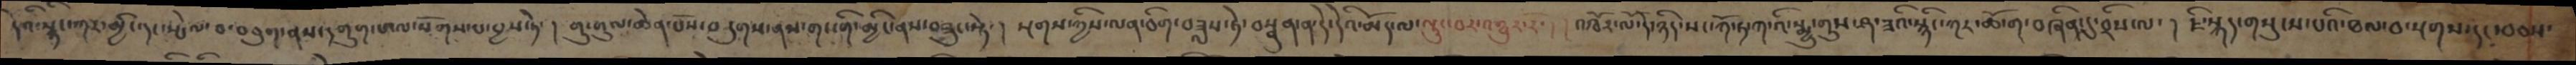དེའི་སྙིང་ཀར་མྱི་དང་སྤེལ་བ་བཅུག་ནས་དགུག་པ་ལ་སོགས་པ་བྱས་ཏེ་། གུ་གུལ་ཆེན་པོས་བདུགས་ནས་གང་གི་མྱིང་ནས་བཟུང་སྟེ་། སྔགས་ཀྱིས་ལན་ཅིག་བཟླས་ཏེ་བསྣུན་ན་དེ་དེའི་མོད་ལ་ལྟུང་བར་འགྱུར་རོ་། །འཁོར་ལོ་དེ་ཉིད་སང་ཀོ་ཏ་ཀ་འི་སྨྱུ་གུས་ཤ་ཟའི་སྙིང་ཀར་ཆོ་ག་བཞིན་དུ་བྲིས་ལ་། ཇི་སྐདད་གསུངས་པའི་ཐལ་བ་སྔགས་དང་བཅས་
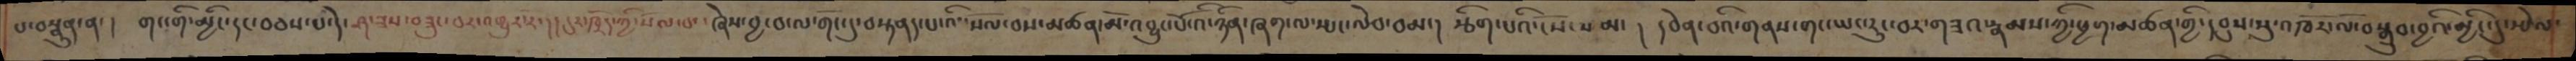པ་བསྣུན་ན་། གང་གི་མྱིང་དང་བཅས་པ་དེ་ཤ་ཟས་བཟུང་བར་འགྱུར་རོ་། །དུར་ཁྲོད་ཀྱི་སོལ་པ་ཞེས་བྱ་བ་ལ་གོང་དུ་བསྟནད་པ་འི་སོལ་བས་མཚན་མོ་འབྱུང་པོ་འི་ཉིན་ཞག་ལ་སྤང་ལེབ་བམ་། རྩིག་པའི་ངོས་སམ་། དབེན་པའི་གནས་གང་ཡང་རུང་བར་གཟའ་རྣམས་ཀྱི་ཕྱག་མཚན་གྱི་དབུས་སུ་འཁོར་ལོ་བསྒྲུབ་བྱའི་མྱིང་དུ་སྤེལ་
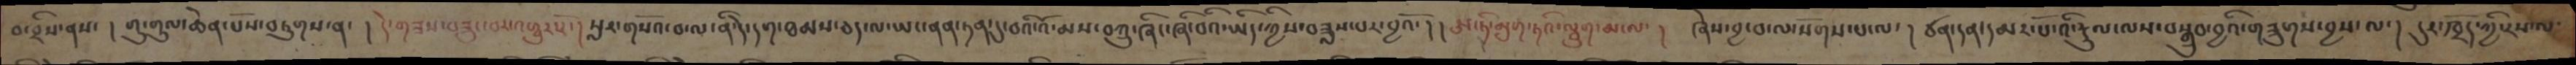བ་བྲིས་ནས་། གུ་གུལ་ཆེན་པོས་བདུགས་པ་། དེ་གཟས་བཟུང་བར་འགྱུར་རོ་། སླར་གསོའ་བ་ལ་ནི་དེ་དག་ཐམས་ཅད་ལ་ཡང་ནན་ཏན་དུ་བའི་འོ་མས་བཀྲུ་ཞིང་ཞི་བའི་ཡིད་ཀྱིས་བཟླས་པར་བྱའོ་། །ཨ་ཏི་མུག་ཏའི་ལྦུག་མ་ལ་། ཞེས་བྱ་བ་ལ་སོགས་པ་ལ་། ཙན་དན་དམར་པོ་འི་རྡུལ་ལས་བསྒྲུབ་བྱའི་གཟུགས་བྱས་ལ་། དུར་ཁྲོད་ཀྱི་རས་ལ་
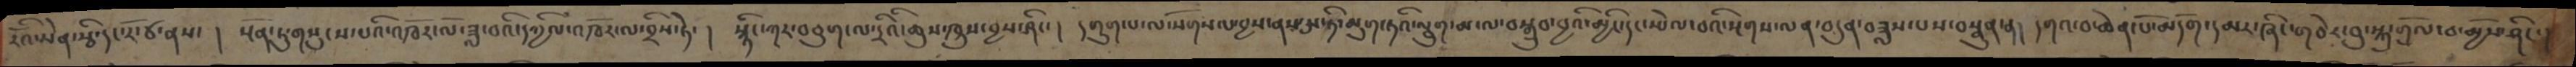རོའི་ཡེན་རྩི་དང་རོ་ཙ་ནས་། སྔོན་དུ་གསུངས་པའི་འཁོར་ལོ་ཟླ་བའི་དཀྱིལ་འཁོར་ལ་བྲིས་ཏེ་། སྙིང་ཀར་བཅུག་ལ་དྲིའི་ཆུས་ཁྲུས་བྱས་ཤིང་། དགུག་པ་ལ་སོགས་པ་བྱས་ནས་ཨ་ཏི་མུག་ཏའི་ལྦུག་མ་ལ་བསྒྲུབ་བྱའི་མྱིང་དང་སྤེལ་བའི་སྔགས་ལན་བདུན་བཟླས་པས་བསྣུན་ན། དགའ་བ་ཆེན་པོ་མདོག་དམར་ཞིང་གཅེར་བུ་སྐུ་གྲོལ་བ་མྱོས་ཤིང་།
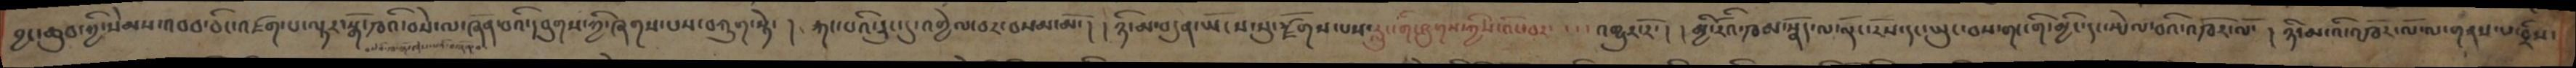བྱང་ཆུབ་ཀྱི་སེམས་འབབ་ཅིང་འཛག་པ་ལྟར་སྒོ་ཁའི་བསེ་ལ་ཞོན་པའི་དབུགས་ཀྱི་ཞགས་པས་བཀུག་སྟེ་ ། རྐང་པའི་དྲུང་དུ་འགྱེལ་བར་བསམ་མོ་། །ཉི་མ་བདུན་ཡོངས་སུ་རྫོགས་པས་རླུང་གི་ཤུགས་ཀྱིས་འོང་བར་་་་འགྱུར་རོ་། །མྱི་རོའི་ཁམ་སྣོད་ལ་ལྡོང་རོས་དང་སྤུང་བས་གང་གི་མྱིང་དང་སྤེལ་བའི་འཁོར་ལོ་ ། ཉི་མ་འི་འཁོར་ལོ་ལ་གནས་པ་བྲིས་
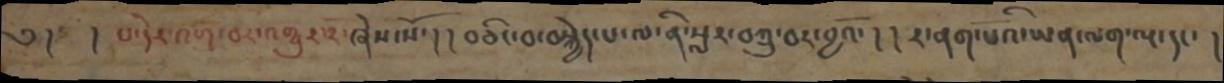༅།  ། པ་དེར་འགོ་བར་འགྱུར་རོ་ཞེས་སོ་། ། བཅིང་བ་བསྐྱེད་པ་ལ་ནི་སླར་བཀྲུ་བར་བྱའོ་། ། ར་ནག་པོའི་ཡན་ལག་ལྔ་དང་།
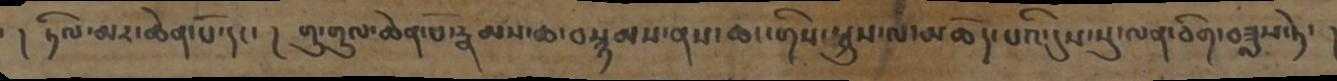་། ཏིལ་མར་ཆེན་པོ་དང་། གུ་གུལ་ཆེན་པོ་རྣམས་ཆ་བསྙམས་ནས་ཆང་གིས་སྐུས་ལ་མཆོད་པའི་དུས་སུ་ལན་ཅིག་བཟླས་ཏེ་ །
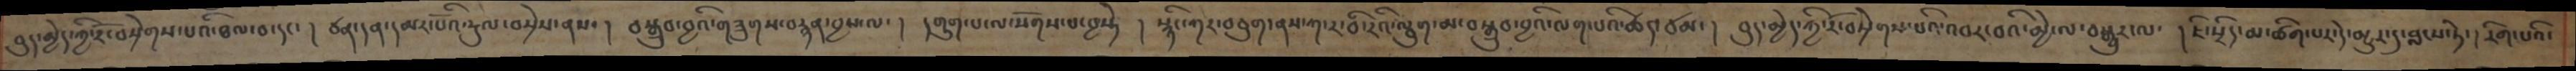བུད་མྱེད་ཀྱི་རོ་བསྲེགས་པའི་ཐལ་བ་དང་། ཙན་དན་དམར་པོའི་རྡུལ་བསྲེས་ནས་། བསྒྲུབ་བྱའི་གཟུགས་བརྙན་བྱས་ལ་། དགུག་པ་ལ་སོགས་པ་བྱ་སྟེ ། སྙིང་ཀར་བཅུག་ནས་ཀ་ར་བི་རའི་ལྕུག་མ་བསྒྲུབ་བྱའ་ལག་པའི་ཚད་ཙམ་། བུད་མྱེད་ཀྱི་རོ་བསྲེགས་པའི་འབར་བའི་མྱེ་ལ་བསྒྱུར་ལ་། ཇི་སྲིད་མ་ཚིག་པར་དེ་མྱུར་དུ་བླངས་ཏེ་ ། རིག་པའི
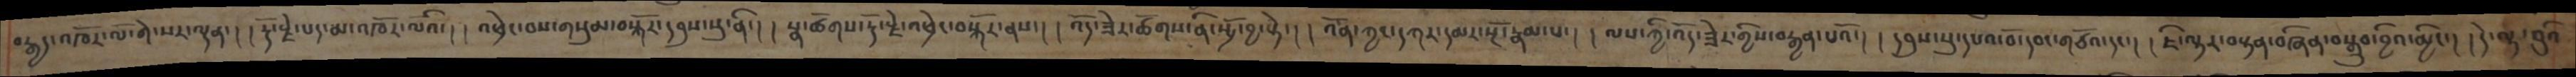བརྒྱད་འཁོར་ལོ་གེ་སར་ལྡན་། །རྡོ་རྗེ་པད་མ་འཁོར་ལོའི་། །འཕྲེང་བས་གསུམ་བསྐོར་དབུས་སུ་ནི་། །སྣ་ཚོགས་རྡོ་རྗེ་འཕྲེང་བསྐོར་ནས་། །འོད་ཟེར་ཚོགས་ནི་སྤྲོ་བྱ་སྟེ་། །འོན་ཀྱང་དཀར་དམར་སྔོ་རྣམ་པ་། །ལས་ཀྱི་འོད་ཟེར་གྱིས་བརྒྱན་པའོ་། །དབུས་སུ་དཔའ་བོ་དབང་གཙོའ་དང་། །ཇི་ལྟར་བསྟན་བཞིན་བསྒྲུབ་བྱའི་མྱིང་། །དེ་ལྟ་བུའི
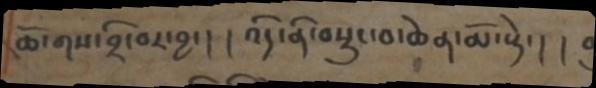ཆོ་གས་བྲི་བར་བྱ་། །འདི་ནི་བསྲུང་བ་ཆེན་མོ་སྟེ་། ། བུ
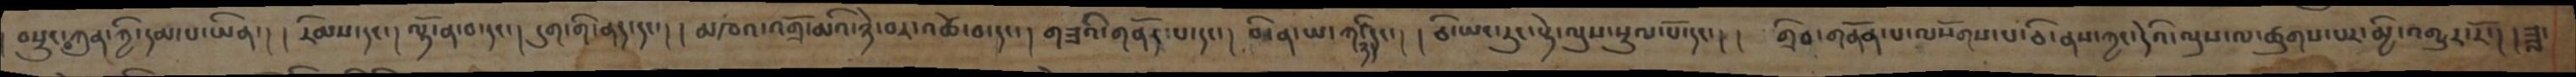བསྲུང་བ་ཀུན་གྱི་དམ་པ་ཡིན་། །རིམས་དང་། ལྟོ་ན་བ་དང་། དུག་གི་ནད་དང་། །མཁའ་འགྲོ་མའི་ཉེ་བར་འཚེ་བ་དང་། གཟའི་གནོད་པ་དང་། བི་ན་ཡ་ཀ་ཉིད་དང་། །ཅི་ཡང་རུང་སྟེ་ལུས་སྲུལ་པོ་དང་། །གྲིབ་གནོན་པ་ལསོགས་པ་ཅི་ནས་ཀྱང་དེའི་ལུས་ལ་ཚུགས་པར་མྱི་འགྱུར་རོ་། །ཟླ་
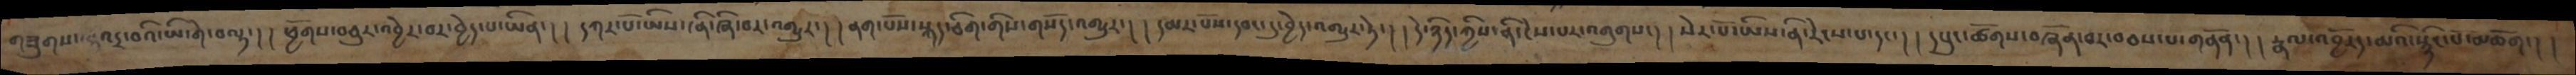གཟུགས་འདྲ་བའི་ཡི་གེ་བལྟ་། །ཕྱོགས་བཅུར་འབྱེར་བར་བྱེད་པ་ཡིན་། །དཀར་པོ་ཡིས་ནི་ཞི་བར་འགྱུར་། །ནག་པོས་སྐད་ཅིག་གིས་གསོད་འགྱུར་། །དམར་པོས་དབང་དུ་བྱེད་འགྱུར་ཏེ་། །དེ་ཉིད་ཀྱིས་ནི་ངེས་པར་འགུགས་། །སེར་པོ་ཡིས་ནི་རེངས་པ་དང་། །དཔུང་ཚོགས་བཞོན་བར་བཅས་པ་གནོན་། །རྣལ་འབྱོརད་མའི་སྙིང་པོ་མཆོག་། །
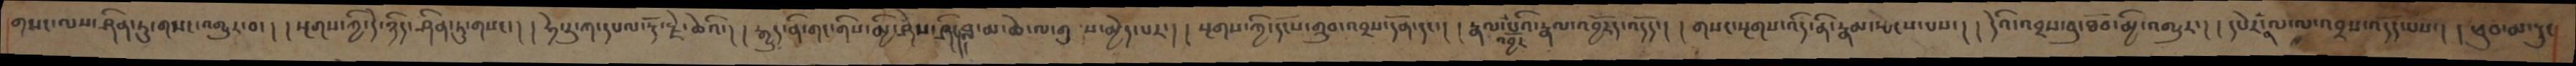གསང་ལས་ཤིན་ཏུ་གསང་གྱུར་བ་། །སྔགས་ཀྱི་དེ་ཉིད་ཤིན་ཏུ་གསང་། །ཧེ་རུ་ཀ་དཔལ་རྡོ་རྗེ་ཆེའི་། །རྒྱུད་ནི་གང་གིས་མྱི་ཤེས་ཤིང་། །བླ་མ་ཆེ་ལ་གུས་མྱེད་པར་། །སྔགས་ཀྱི་དངོས་གྲུབ་འབྲས་དོན་དང་། །རྣལ་འབྱོར་པའི་རྣལ་འབྱོརད་འདོད་། །གསང་སྔགས་འདི་ནི་རྣམ་སྤངས་པས་། །དེའི་འབྲས་བུ་ཐོབ་མྱི་འགྱུར་། །དཔེར་ན་ལས་ལ་འབྲས་འདོད་པས་། །ཕུབ་མ་དུང
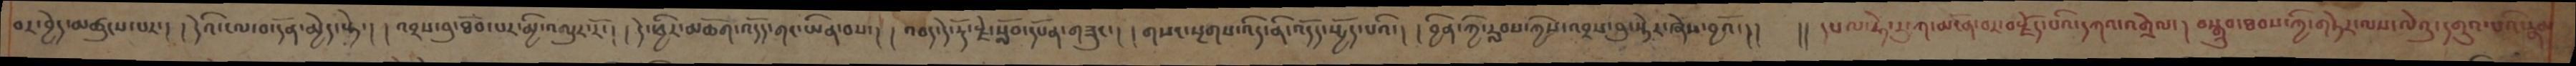བར་བྱེད་མཚུངས་པར་། །དེའི་ངལ་བ་དོན་མྱེད་སྟེ་། འབྱུས་བུ་ཐོབ་པར་མྱི་འགྱུར་རོ་། །དེ་ཕྱིར་མཆོག་འདོད་གང་ཡིན་བས་། །འབད་དེ་རྡོ་རྗེ་སློབ་དཔོན་གཟུང་། །གསང་སྔགས་འདི་ནི་འདོད་སྤྱོད་པའི་། །བྱིན་ཀྱི་རླབས་ཀྱིས་འབྲས་བུ་སྟེར་ཞེས་བྱའོ་།།   །།དཔལ་ཧེ་རུ་ཀ་མངོན་པར་བརྗོད་པའི་དཀའ་འགྲེལ་། བསྒྲུབ་ཐབས་ཀྱི་གཏེར་ལས་ལེའུ་དགུའ་པའི་རྣམ
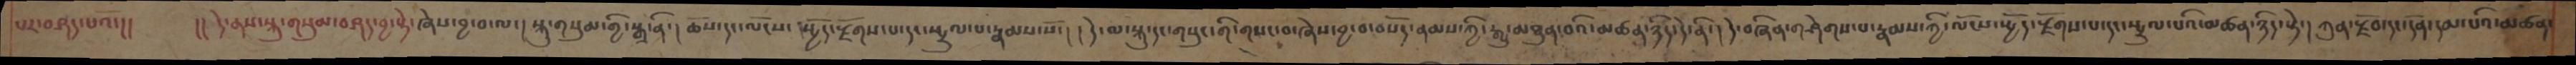པར་བཤད་པའོ་།།   །།དེ་ནས་སྐུ་གསུམ་བཤད་བྱ་སྟེ་ཞེས་བྱ་བ་ལ་། སྐུ་གསུམ་གྱི་སྒྲ་ནི་། ཆོས་དང་ལོངས་སྤྱོད་རྫོགས་པ་དང་སྤྲུལ་པ་རྣམས་སོ་། །དེ་ལ་སྐུ་དང་གསུང་གི་གསང་བ་ཞེས་བྱ་བ་བསོད་ནམས་ཀྱི་རྒྱུ་མཐུན་བའི་མཚན་ཉིད་དེ་ནི་། དེ་བཞིན་གཤེགས་པ་རྣམས་ཀྱི་ལོངས་སྤྱོད་རྫོགས་པ་དང་སྤྲུལ་པའི་མཚན་ཉིད་སྟེ་། ཀུན་རྫོབ་དང་དོན་དམ་པའི་མཚན་
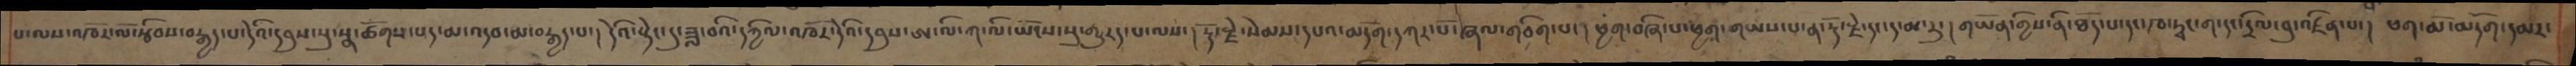པ་ལས་འཁོར་ལོ་རྩིབས་བརྒྱད་པ་དེའི་དབུས་སུ་སྣ་ཚོགས་པད་མ་འདབ་མ་བརྒྱད་པ་། དེའི་སྟེང་དུ་ཟླ་བའི་དཀྱིལ་འཁོར་དེའི་དབུས་ཨ་ལི་ཀ་ལི་ཡོངས་སུ་གྱུརད་པ་ལས་། རྡོ་རྗེ་སེམས་དཔའ་མདོག་དཀར་པོ་ཞལ་གཅིག་པ་། ཕྱག་བཞི་པ་ཕྱག་གཡས་པ་ན་རྡོ་རྗེ་དང་ད་མ་རུ་། གཡོན་གྱིས་ནི་ཐོད་པ་དང་ཁ་ཏྭང་ག་དང་དྲིལ་བུ་འཛིན་པ་། ཕག་མོ་མདོག་དམར་
